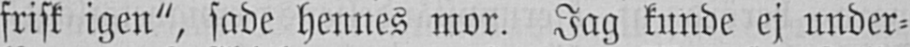frisk igen", sade hennes mor. Jag kunde ej under-
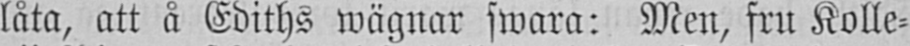låta, att å Ediths wägnar swara: Men, fru Kolle-
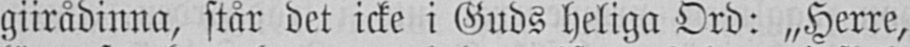giirådinna, står det icke i Guds heliga Ord: „Herre,
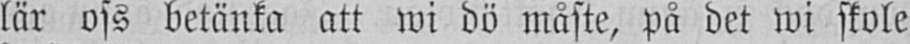lär oss betänka att wi dö måste, på det wi skole
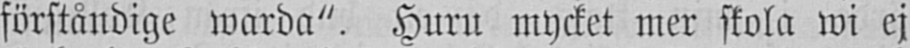förståndige warda". Huru mycket mer skola wi ej
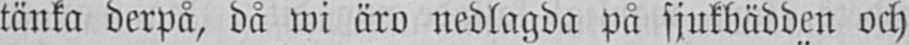tänka derpå, då wi äru nedlagda på sjukbädden och
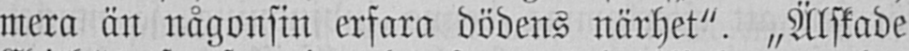mera än någonsin erfara dödens närhet". „Älskade
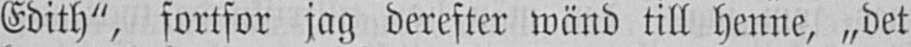Edith", fortfor jag derefter wänd till henne, „det
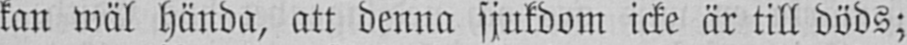kan wäl hända, att denna sjukdom icke är till döds;
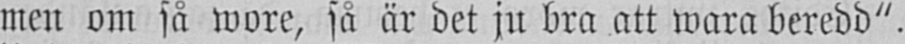men om så wore, så är det ju bra att wara beredd".
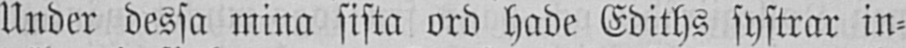Under dessa mina sista ord hade Ediths systrar in-
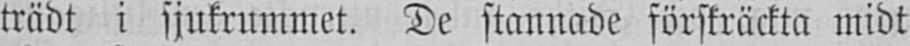trädt i sjukrummet. De stannade förskräckta midt
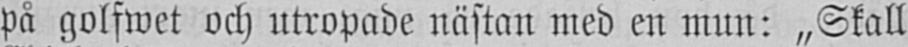på golfwet och utropade nästan med en mun: „Skall
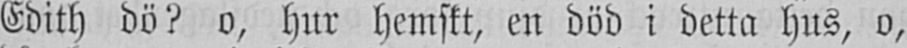Edith dö? o, hur hemskt, en död i detta hus, o,
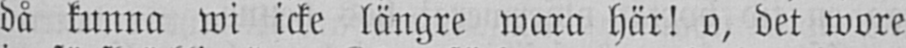då kunna wi icke längre wara här! o, det wore
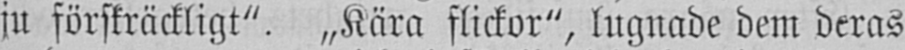ju förskräckligt". „Kära flickor", lugnade dem deras
